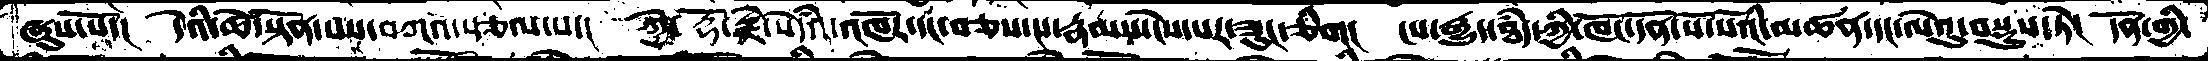ཞུས་པོ་།   དེའི་ཚེ་སྟོན་པས་བཀའ་སྩལ་པ་།  ཀྱེ་ རྡོ་རྗེ་སེདཾའ་འཁོར་དང་བཅས་པ་རྣམས་ངེས་པར་ཟུང་ཅིག།  ངས་རྒྱུད་ཐཾད་ཀྱི་ཁོང་དོན་སོ་སོའི་མཚན་དང་ལེའུ་བསྡུས་ཏེ།  དོན་གྱི་
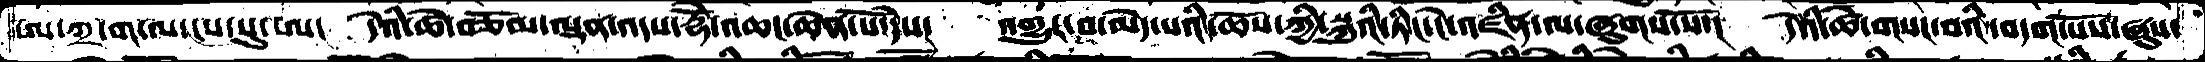ཨ་ཀྲ་ག་ལ་ངས་སུ་ཨ།  དེའི་ཚེ་བཅོམ་ལྡན་འདས་རྡོེ་འཆང་ཆེན་པོ་དེས།  འགྱུར་བ་མེད་པའི་ཆོས་ཀྱི་སྐུའི་ཏིང་ངེ་འཛིན་ལ་ཞུགས་སོ་།  དེའི་ཚེ་གསང་བའི་བདག་པོས་ཞུས་
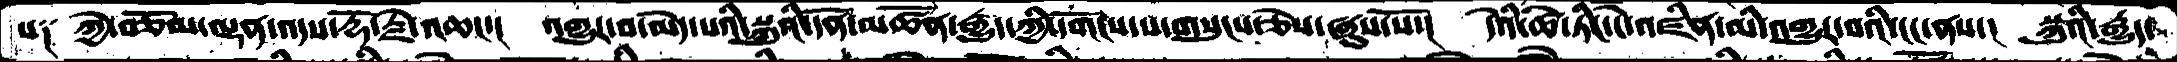པ༑  ཀྱེ་བཅོམ་ལྡན་འདས་རྡོ་རྗེ་འཆང་།  འགྱུར་བ་མེད་པའི་སྐུའི་དོན་མཚོན་རྒྱུད་ཀྱི་དགོངས་པ་གསུངས་ཅེས་ཞུས་སོ་།  དེའི་ཚེ་ཏིང་ངེ་འཛིན་མི་འགྱུར་བའི་ངང་ནས་།  སྐུའི་རྒྱུད་
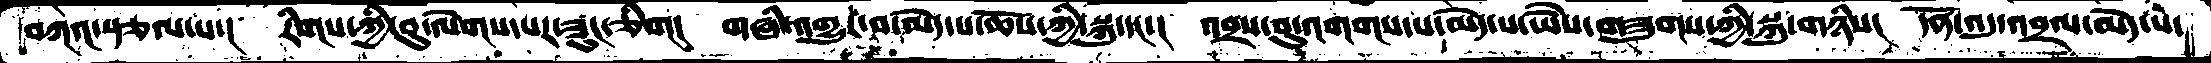བཀའ་སྩལ་པ་།  རིགས་ཀྱི་བུ་ལེགས་པར་ཟུང་ཅིག།  གཞི་འགྱུར་བ་མེད་པ་ཆོས་ཀྱི་སྐུ་དང་།  འབྲས་བུ་འགགས་པ་མེད་པ་ཡཻས་གཟུགས་ཀྱི་སྐུ་གཉིས།  དོན་འདུ་འབྲལ་མེད་པ་
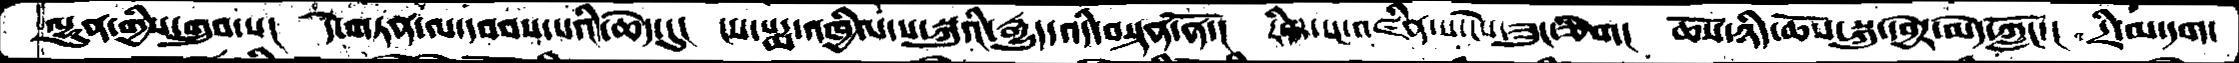ལྷུན་གྱིས་གྲུབ་པ།  དེ་གཏན་ལ་དབབས་པའི་ཆེད་དུ།  ངས་པདྨ་འཁྱིལ་ས་སྐུའི་རྒྱུད་འདི་བསྟན་ནོ་།  རིག་པ་འཛིན་པ་ངེས་ཟུང་ཅིག།  ཆོས་ཉིད་ཆོས་སྐུ་དབྱེར་མེད་ཀློང་།  དྲི་མ་དག་
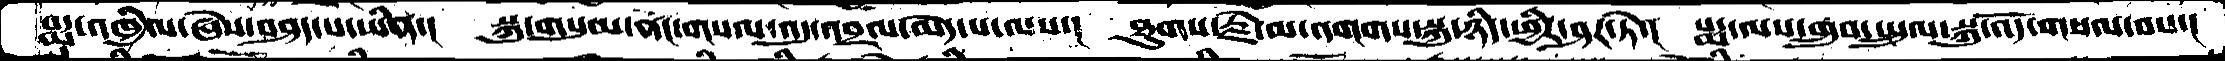པདྨ་འཁྱིལ་ཞེས་བཤད་པ་ཡིན་།  སྐུ་གསུམ་ནང་གསལ་འདུ་འབྲལ་མེད་པ་ལས་།  ཐུགས་རྗེ་མ་འགགས་སྐུ་ཉིད་ཕྱིར་ཤར་ཏེ་།  པདྨ་ལས་གྲུབ་སྤྲུལ་སྐུ་འོད་གསལ་བས་།
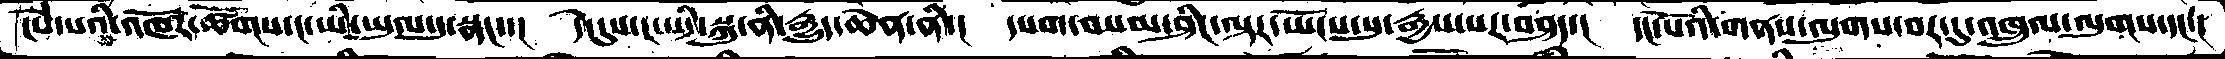ངེས་པའི་འཁོར་ཚོགས་ང་ཡི་ཡུལ་དུ་སྣང་་།   དེ་དུས་ང་ཡི་སྐུ་ནི་རྒྱུད་ཆེན་ནི་།  དཔག་བསམ་ཤིང་ལྟར་ཡོངས་སུ་རྒྱས་པར་བཤད་།  དང་པོའི་གནས་ལུགས་བར་དུ་འཁྲུལ་ལུགས་དང་།
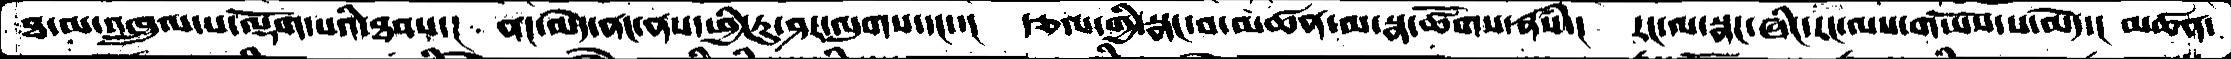ཐ་མ་འཁྲུལ་པ་ལྡོག་པའི་ཐབས་།  ནང་མེད་ནང་ནས་ཕྱི་རུ་ཤར་ལུགས་དང་་།  རྩལ་གྱི་སྣང་བ་མཚན་མ་སྣ་ཚོགས་རྣཾས་།  རང་ལ་སྣང་ཞིང་རང་ལས་གཡོས་པ་མེད་།  མཚན་
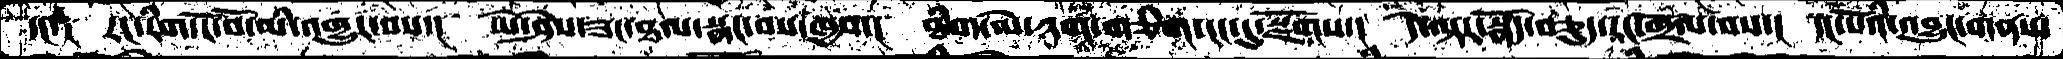དང་།   རང་རིག་ངོ་བོ་མི་འགྱུར་བས་།  ཡེ་ཤེས་ཟང་ཐལ་སྣང་བས་ཁྱབ་།   ཐིག་ལེ་ཉག་གཅིག་ངང་དུ་སྫོགས་།  དེ་ལྟར་སྣོད་བཅུད་རང་གྲོལ་བས་།  དང་པོའི་འབྱུང་གནས་
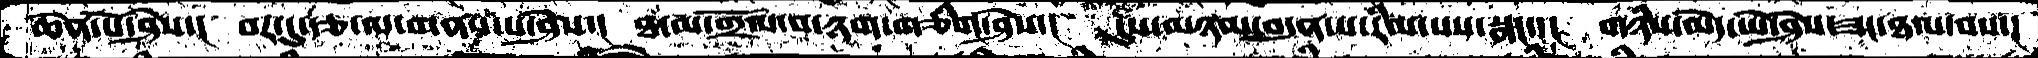ཆེན་པོ་ཤེས་།   བར་དུ་རྩ་ལ་གནས་པ་ཤེས་།  ཐ་མ་གྲོལ་བ་ཉག་གཅིག་ཤེས་།  དུས་མཉམ་བདུན་པ་རིམ་པས་སྣང་་།  གཉིས་མེད་ཡེ་ཤེས་ཟང་ཐལ་བས་།
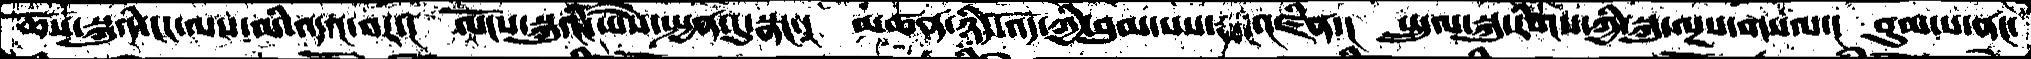ཆོས་སྐུའི་ངང་ལས་མི་འདའ་བར་།  ལོངས་སྐུའི་ཡཻས་སྤྱན་དུ་སྣང་།  མཚན་ཉིད་འོད་ཀྱི་བུམ་པས་འཛིན་།  སྤྲུལ་སྐུ་རིགས་ཀྱི་སྐུ་ལྔས་གསལ་།  བུམ་པ་ནང་
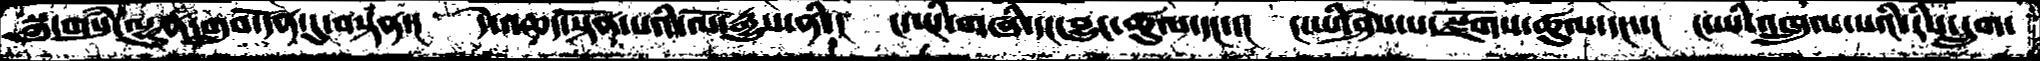སྐུ་གསུཾ་ལྷུན་གྲུབ་དོན་དུ་བསྟན་།  དེ་འཆད་སྟོན་པའི་ལོ་རྒྱུས་ནི་།  ང་ཡི་གཞི་དང་བྱུང་ཚུལ་དང་་།  ང་ཡི་ཤེས་པ་སྫོགས་ཚུལ་དང་་།  ང་ཡི་འཁྲུལ་པའི་རིས་དྲུག་
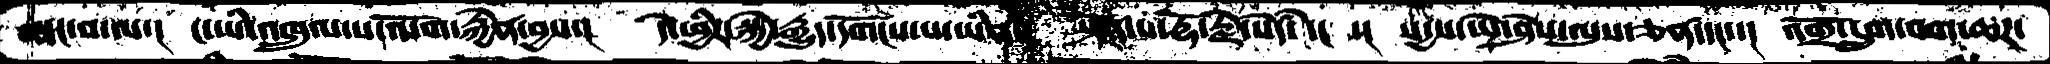སྣང་བ་ལ་།  ང་ཡི་འཁྲུལ་པ་ལོག་རྐྱེན་བྱས་།  དེ་ཕྱིར་སྐྱེ་རྒྱུད་དགོངས་པ་ཡིན་།  སྟོན་པ་རྡོ་རྗེ་སེདཾའ་དང་།  སདྱས་ཡེ་ཤེས་ལུས་ཅན་དང་་།  འགྲོ་དྲུག་བག་ཆཌ་
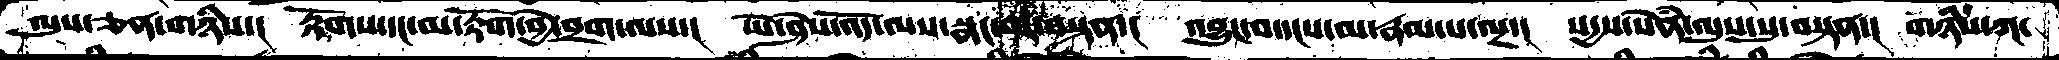ལུས་ཅན་གཉིས་།  རྟོགས་དང་མ་རྟོག་བྱེ་བྲག་ལས་།  ཡེ་ཤེས་འོད་ལས་སྣང་བར་བསྟན་།  འབྱུང་བ་དངས་མ་རྣམ་པ་ལྔ་།  སདྱས་སེཾན་ལུས་སུ་བསྟན་། གཉིས་ཀ་
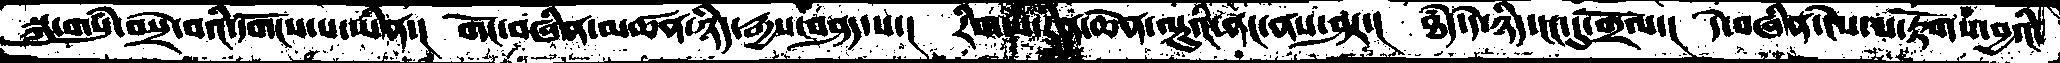སྐུ་གསུཾ་བསྲེ་བའི་དགོངས་པ་ཡིན་།  གོང་བཞིན་མཚན་ཉིད་རྒྱས་བཤད་པ་།  རིག་པ་རིན་ཆེན་ལྟུའི་ནང་ནས་ཤར་།  ཐཾད་དེ་ཉིད་ངང་དུ་གྲོལ་།  དེ་བཞིན་ངེས་པ་རྟོགས་བྱའི་
